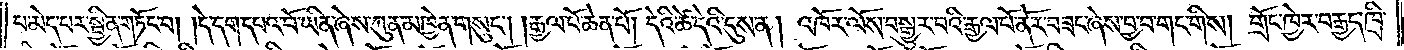པ་མེད་པར་སྦྱིན་གཏོང་བ། །དེ་དག་དཔའ་བོ་ཡིན་ཞེས་ཀུན་མཁྱེན་གསུང༌། །རྒྱལ་པོ་ཆེན་པོ། དེའི་ཚེ་དེའི་དུས་ན། འཁོར་ལོས་བསྒྱུར་བའི་རྒྱལ་པོ་ནོར་བཟང་ཞེས་བྱ་བ་གང་གིས། གྲོང་ཁྱེར་བརྒྱད་ཁྲི་
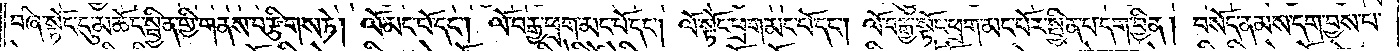བཞི་སྟོང་དུ་མཆོད་སྦྱིན་གྱི་གནས་བརྩིགས་ཏེ། ལོ་མང་པོ་དང༌། ལོ་བརྒྱ་ཕྲག་མང་པོ་དང༌། ལོ་སྟོང་ཕྲག་མང་པོ་དང༌། ལོ་བརྒྱ་སྟོང་ཕྲག་མང་པོར་སྦྱིན་པ་དག་བྱིན། བསོད་ནམས་དག་བྱས་པ་
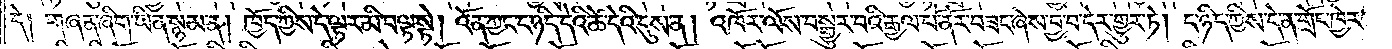དེ། གཞན་ཞིག་ཡིན་སྙམ་ན། ཁྱོད་ཀྱིས་དེ་ལྟར་མི་བལྟ་སྟེ། འོན་ཀྱང་ང་ཉིད་དེའི་ཚེ་དེའི་དུས་ན། འཁོར་ལོས་བསྒྱུར་བའི་རྒྱལ་པོ་ནོར་བཟང་ཞེས་བྱ་བ་དེར་གྱུར་ཏེ། ང་ཉིད་ཀྱིས་དེ་ན་གྲོང་ཁྱེར་
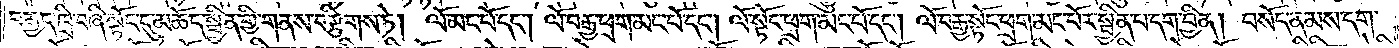བརྒྱད་ཁྲི་བཞི་སྟོང་དུ་མཆོད་སྦྱིན་གྱི་གནས་བརྩིགས་ཏེ། ལོ་མང་པོ་དང༌། ལོ་བརྒྱ་ཕྲག་མང་པོ་དང༌། ལོ་སྟོང་ཕྲག་མང་པོ་དང༌། ལོ་བརྒྱ་སྟོང་ཕྲག་མང་པོར་སྦྱིན་པ་དག་བྱིན། བསོད་ནམས་དག་
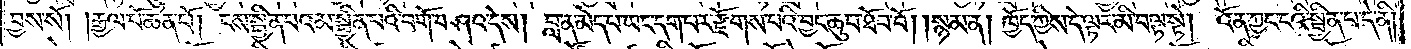བྱས་སོ། །རྒྱལ་པོ་ཆེན་པོ། ངས་སྦྱིན་པའམ་སྦྱིན་པའི་བགོ་བཤའ་དེས། བླ་ན་མེད་པ་ཡང་དག་པར་རྫོགས་པའི་བྱང་ཆུབ་ཐོབ་བོ། །སྙམ་ན། ཁྱོད་ཀྱིས་དེ་ལྟར་མི་བལྟ་སྟེ། འོན་ཀྱང་ངའི་སྦྱིན་པ་དེ་ནི།
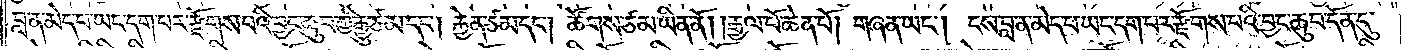བླ་ན་མེད་པ་ཡང་དག་པར་རྫོགས་པའི་བྱང་ཆུབ་ཀྱི་རྒྱུ་ཙམ་དང༌། རྐྱེན་ཙམ་དང༌། ཚོགས་ཙམ་ཡིན་ནོ། །རྒྱལ་པོ་ཆེན་པོ། གཞན་ཡང༌། ངས་བླ་ན་མེད་པ་ཡང་དག་པར་རྫོགས་པའི་བྱང་ཆུབ་དོན་དུ་
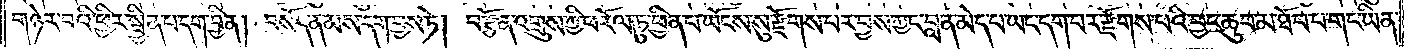གཉེར་བའི་ཕྱིར་སྦྱིན་པ་དག་བྱིན། བསོད་ནམས་དག་བྱས་ཏེ། བརྩོན་འགྲུས་ཀྱི་ཕ་རོལ་ཏུ་ཕྱིན་པ་ཡོངས་སུ་རྫོགས་པར་བྱས་ཀྱང་བླ་ན་མེད་པ་ཡང་དག་པར་རྫོགས་པའི་བྱང་ཆུབ་མ་ཐོབ་པ་གང་ཡིན་
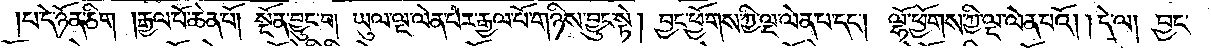།པ་དེ་ཉོན་ཅིག །རྒྱལ་པོ་ཆེན་པོ། སྔོན་བྱུང་བ། ཡུལ་ལྔ་ལེན་པར་རྒྱལ་པོ་གཉིས་བྱུང་སྟེ། བྱང་ཕྱོགས་ཀྱི་ལྔ་ལེན་པ་དང༌། ལྷོ་ཕྱོགས་ཀྱི་ལྔ་ལེན་པའོ། །དེ་ལ། བྱང་
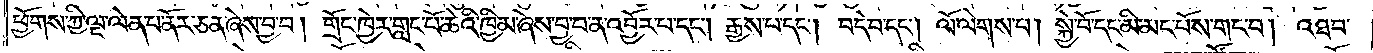ཕྱོགས་ཀྱི་ལྔ་ལེན་པ་ནོར་ཅན་ཞེས་བྱ་བ། གྲོང་ཁྱེར་གླང་པོ་ཆེའི་ཁྱིམ་ཞེས་བྱ་བ་ན་འབྱོར་པ་དང༌། རྒྱས་པ་དང༌། བདེ་བ་དང༌། ལོ་ལེགས་པ། སྐྱེ་བོ་དང་མི་མང་པོས་གང་བ། འཐབ་
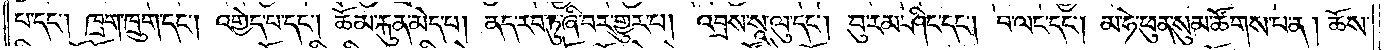པ་དང༌། ཁྲག་ཁྲུག་དང༌། འགྱེད་པ་དང༌། ཆོམ་རྐུན་མེད་པ། ནད་རབ་ཏུ་ཞི་བར་གྱུར་པ། འབྲས་སཱ་ལུ་དང༌། བུ་རམ་ཤིང་དང༌། བ་ལང་དང༌། མ་ཧེ་ཕུན་སུམ་ཚོགས་པ་ན། ཆོས་
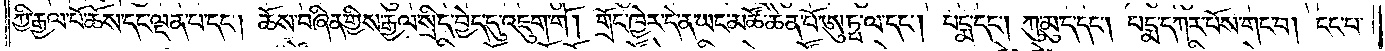ཀྱི་རྒྱལ་པོ་ཆོས་དང་ལྡན་པ་དང༌། ཆོས་བཞིན་གྱིས་རྒྱལ་སྲིད་བྱེད་དུ་འཇུག་གོ། །གྲོང་ཁྱེར་དེ་ན་ཡང་མཚོ་ཆེན་པོ་ཨུཏྤ་ལ་དང༌། པདྨ་དང༌། ཀུ་མུ་ད་དང༌། པདྨ་དཀར་པོས་གང་བ། ངང་པ་
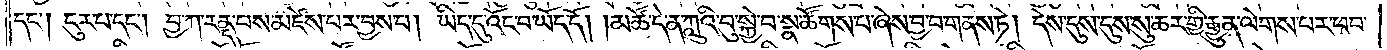དང༌། ངུར་པ་དང༌། བྱ་ཀ་རནྡ་པས་མཛེས་པར་བྱས་པ། ཡིད་དུ་འོང་བ་ཡོད་དོ། །མཚོ་དེ་ན་ཀླུའི་བུ་སྐྱེ་བ་སྣ་ཚོགས་པ་ཞེས་བྱ་བ་གནས་ཏེ། དེས་དུས་དུས་སུ་ཆར་གྱི་རྒྱུན་ལེགས་པར་ཕབ་
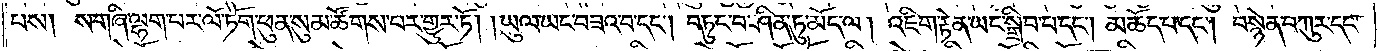པས། ས་གཞི་ལྷག་པར་ལོ་ཏོག་ཕུན་སུམ་ཚོགས་པར་གྱུར་ཏོ། །ཡུལ་ཡང་བཟའ་བ་དང༌། བཏུང་བ་ཤིན་ཏུ་མོད་ལ། འཇིག་རྟེན་ཡང་སྒྲིབ་པ་དང༌། མཆོད་པ་དང༌། བསྙེན་བཀུར་དང༌།
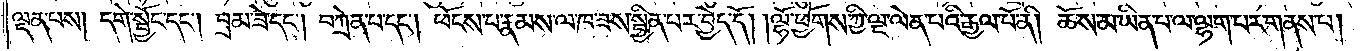ལྡན་པས། དགེ་སྦྱོང་དང༌། བྲམ་ཟེ་དང༌། བཀྲེན་པ་དང༌། ཕོངས་པ་རྣམས་ལ་ཁ་ཟས་སྦྱིན་པར་བྱེད་དོ། །ལྷོ་ཕྱོགས་ཀྱི་ལྔ་ལེན་པའི་རྒྱལ་པོ་ནི། ཆོས་མ་ཡིན་པ་ལྷག་པར་གནས་པ།
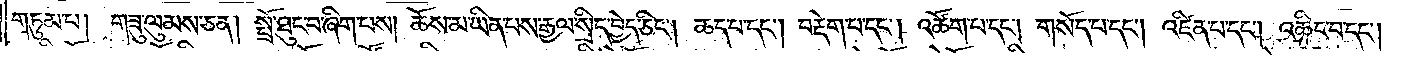གཏུམ་པ། གཟུ་ལུམས་ཅན། སྤྲོ་ཐུང་བ་ཞིག་པས། ཆོས་མ་ཡིན་པས་རྒྱལ་སྲིད་བྱེད་ཅིང༌། ཆད་པ་དང༌། བརྡེག་པ་དང༌། འཚོག་པ་དང༌། གསོད་པ་དང༌། འཛིན་པ་དང༌། འཆིང་བ་དང༌།
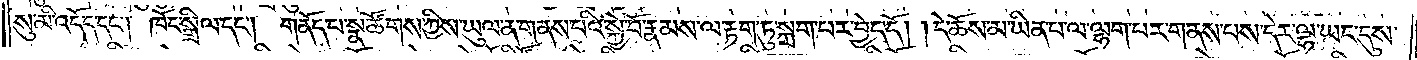སུ་མི་འདོད་དང༌། ཁོང་སྒྲིལ་དང༌། གནོད་པ་སྣ་ཚོགས་ཀྱིས་ཡུལ་ན་གནས་པའི་སྐྱེ་བོ་རྣམས་ལ་རྟག་ཏུ་སྐྲག་པར་བྱེད་དོ། །དེ་ཆོས་མ་ཡིན་པ་ལ་ལྷག་པར་གནས་པས་དེར་ལྷ་ཡང་དུས་
